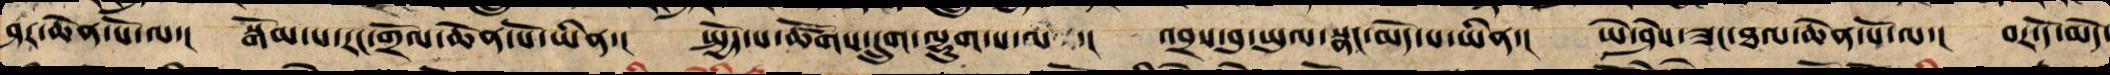ཤར་ཆེན་པོ་ལ་། སྒོམ་པ་རང་གྲོལ་ཆེན་པོ་ཡིན་། སྤྱོད་པ་ཚོགས་དྲུག་ལྷུག་པ་ལ་། འབྲས་བུ་ཡུལ་སྣང་མེད་པ་ཡིན་། ཡེ་ཤེས་ཟང་ཐལ་ཆེན་པོ་ལ་། བར་དོ་མེད་
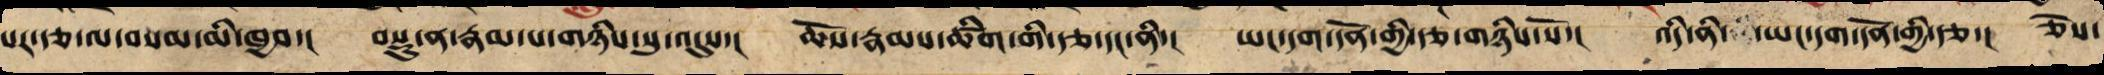པར་རྩ་ལ་བསམ་མི་ཁྱབ་། བསྡུ་ན་རྣམ་པ་གཉིས་སུ་འདུས་། ཆོས་རྣམ་ཚིག་གི་རྩ་དང་ནི་། ཡང་དག་དོན་གྱི་རྩ་གཉིས་སོ་། འདི་ནི་ཡང་དག་དོན་གྱི་རྩ་། ཅེས་
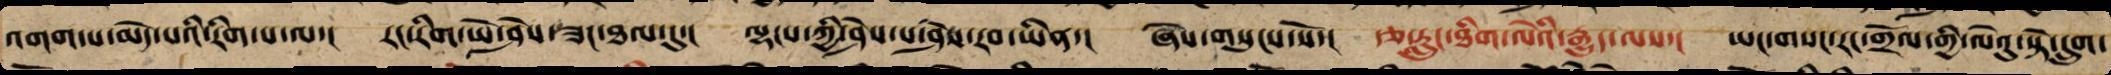འགག་པ་མེད་པའི་རིག་པ་ལ་། རང་རིག་ཡེ་ཤེས་ཟང་ཐལ་དུ་། ལྷངས་ཀྱིས་ཤེས་པ་ཤེས་རབ་ཡིན་། ཞེས་གསུངས་སོ་། རྩ་རླུང་ཐིག་ལེའི་རྒྱུད་ལས་། ཡང་གསང་རང་གྲོལ་གྱི་ལེའུ་སྟེ་དྲུག་
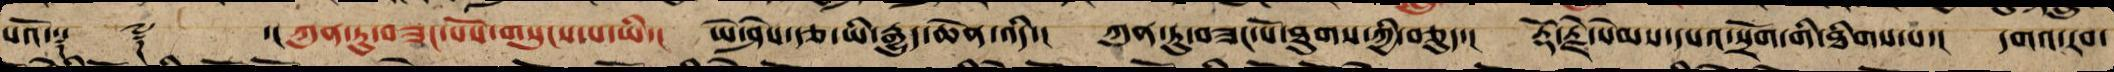པའོ།་༑ ༈ ་།།ཀུན་ཏུ་བཟང་པོས་གསུངས་པ་ཡི་། ཡེ་ཤེས་རྩ་ཡི་རྒྱུད་ཆེན་འདི་། ཀུན་ཏུ་བཟང་པོ་ཐུགས་ཀྱི་བཅུད་། རྡོ་རྗེ་སེམས་དཔའི་སྲོག་གི་ཐིགས་པ་། དགའ་རབ་
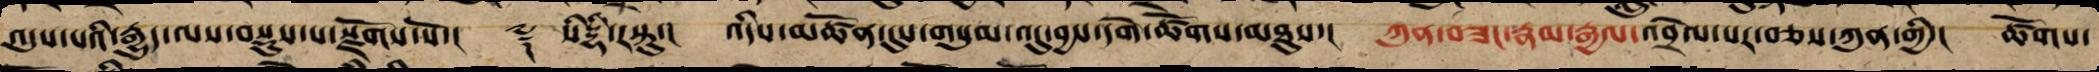འདུས་པའི་རྒྱུད་ལས་བསྡུས་པ་སྫོགས་སོ་།། ༈ ་སིདྡྷི་རསྟུ་། འདིས་མཚོན་དུས་གསུམ་འདུས་བྱས་དགེ་ཚོགས་མཐུས་། ཀུན་བཟང་རྣམ་རྒྱལ་འབྲེལ་པར་བཅས་ཀུན་གྱི་། ཚོགས་
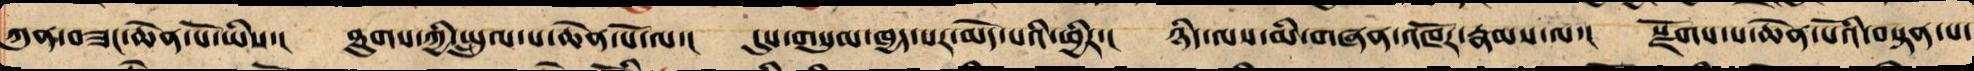ཀུན་ཏུ་བཟང་པོ་ཡིས་། ཐུགས་ཀྱི་སྤྲུལ་པ་ཆེན་པོ་ལ་། དུས་གསུམ་ཁྱད་པར་མེད་པའི་ཕྱིར་། ཉིད་ལས་མི་གཞན་འཁོར་རྣམས་ལ་། སྫོགས་པ་ཆེན་པོའི་བསྟན་པ་
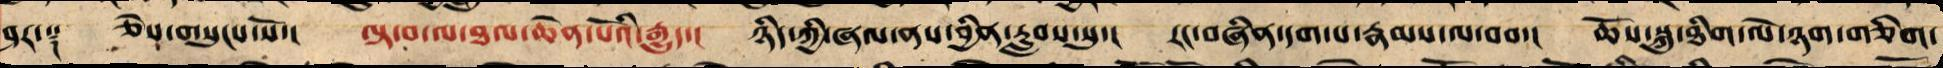ཤར་༑ ཅེས་གསུངས་སོ་། ལྟ་བ་ལ་ཐལ་ཆེན་པོའི་རྒྱུད་། ཉིད་ཀྱི་ཞལ་ནས་བྱིན་རླབས་སུ་། རང་བཞིན་དག་པ་རྣམས་ལ་བབ་། ཆོས་སྐུ་ཐིག་ལེ་ཉག་གཅིག་
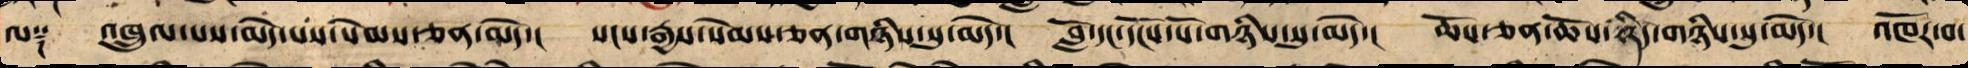ལ༑ འཁྲུལ་པ་མེད་པས་སེམས་ཅན་མེད་། སངས་རྒྱས་སེམས་ཅན་གཉིས་སུ་མེད་། བློ་དང་དངོས་པོ་གཉིས་སུ་མེད་། ཆོས་ཅན་ཆོས་ཉིད་གཉིས་སུ་མེད་། འཁོར་བ་
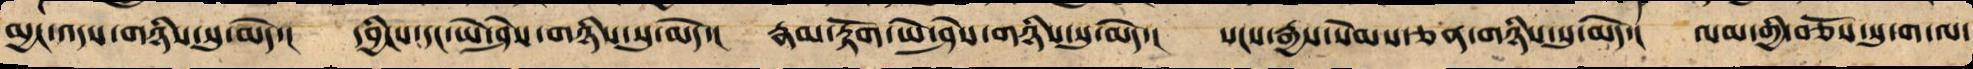མྱང་འདས་གཉིས་སུ་མེད་། དབྱིངས་དང་ཡེ་ཤེས་གཉིས་སུ་མེད་། རྣམ་རྟོག་ཡེ་ཤེས་གཉིས་སུ་མེད་། སངས་རྒྱས་སེམས་ཅན་གཉིས་མེད་དེ་། ལམ་གྱིས་བཅོས་སུ་ག་ལ་
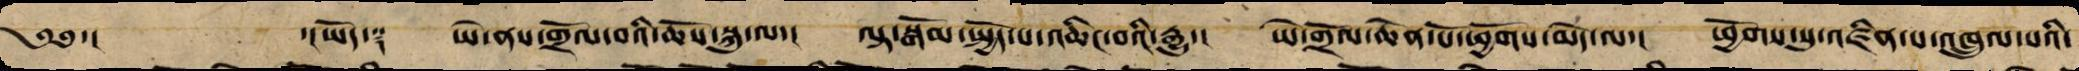༄༅་། ་།ཡོད་༑ ཡེ་ནས་གྲོལ་བའི་ཆོས་སྐུ་ལ་། ལྟ་སྒོམ་སྤྱོད་པ་འཆིང་བའི་རྒྱུ་། ཡེ་གྲོལ་ཆེན་པོ་ཕྱོགས་མེད་ལ་། ཕྱོགས་སུ་འཛིན་པ་འཁྲུལ་པའི་
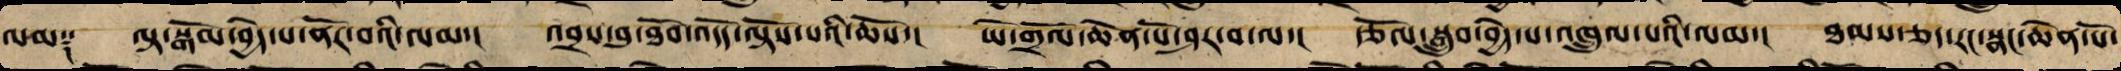ལམ༑ ལྟ་སྒོམ་སྤྱོད་པ་ནོར་བའི་ལམ་། འབྲས་བུ་ཐོབ་འདོད་ལྟོས་པའི་ཆོས་། ཡེ་གྲོལ་ཆེན་པོར་ཤར་བ་ལ་། རྩོལ་བསྒྲུབ་བྱེད་པ་འཁྲུལ་པའི་ལམ་། ཐམས་ཅད་རང་སྣང་ཆེན་པོ་
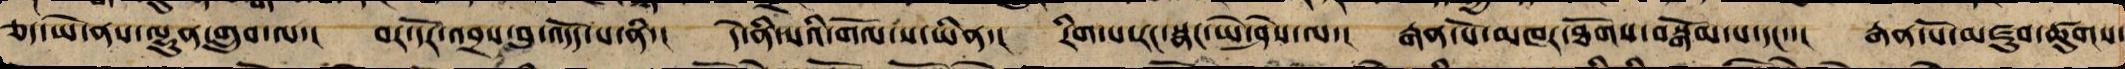ཅད་ཡེ་ནས་ལྷུན་གྲུབ་ལ་། བར་དོར་འབྲས་བུ་འདོད་པ་ནི་། དེ་ནི་ས་ཡི་གོལ་ས་ཡིན་། རིག་པ་རང་བྱུང་ཡེ་ཤེས་ལ་། རྒན་པོ་མཁར་ཐོགས་བསྒོམ་པ་དང་་། རྒན་མོ་མཛུབ་ཚུགས་
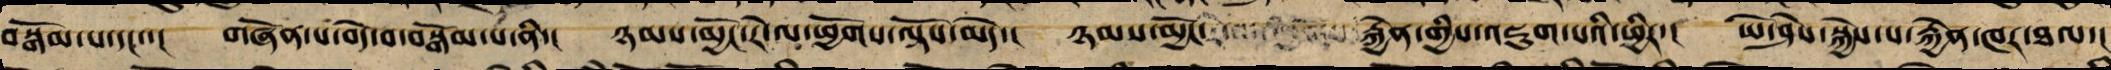བསྒོམ་པ་དང་་། གཞོན་པ་བདེ་བ་བསྒོམ་པ་ནི་། ཉམས་མྱོང་རེ་ལ་ཕྱོགས་ལྟོས་མེད་། ཉམས་མྱོང་རྐྱེན་གྱིས་བསྒྱུར་བའི་ཕྱིར་། ཡེ་ཤེས་སྐྱེས་པ་རྐྱེན་ཁར་ཐལ་།
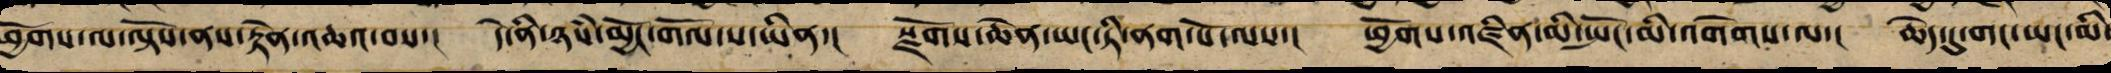ཕྱོགས་ལ་ལྟོས་ནས་རྟེན་འཆའ་བས་། དེ་ནི་ཉཾས་མྱོང་གོལ་ས་ཡིན་། སྫོགས་ཆེན་ཡང་ཏི་ནག་པོ་ལས་། ཕྱོགས་འཛིན་མི་སྤང་མི་འགེགས་ལ་། ཆེད་དུ་གང་ཡང་མི་
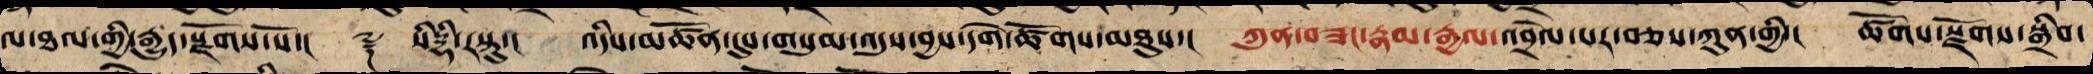ལ་ཐལ་གྱི་རྒྱུད་སྫོགས་སོ་།། ༈ །སིདྡྷི་རསྟུ་། འདིས་མཚོན་དུས་གསུམ་འདུ་བྱས་དགེ་ཚོགས་མཐུས་། ཀུན་བཟང་རྣམ་རྒྱལ་འབྲེལ་པར་བཅས་ཀུན་གྱི་། ཚོགས་སྫོགས་སྒྲིབ་
